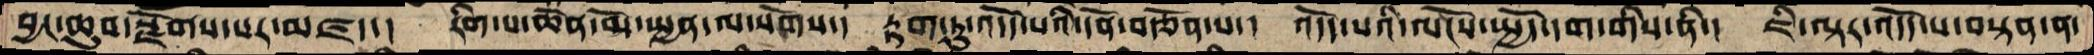བྱང་ཆུབ་སྫོགས་པར་མཛད་།  རིག་པ་ཆེན་མོ་སྤྱན་ལ་སོགས་།  རྟག་ཏུ་འདོད་པའི་དོན་བརྩོན་པ་།  འདོད་པའི་ལོངས་སྤྱོད་དག་གིས་ནི་།  ཇི་ལྟར་འདོད་པ་བསྟན་ན་
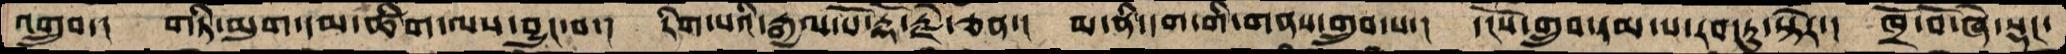འགྲུབ་།  གཏི་མུག་དམ་ཚིག་ལས་བྱུང་བ་།  རིག་པའི་རྒྱལ་པོ་རྡོ་རྗེ་ཅན་།  མ་ནི་དག་གི་གནས་གྲུབ་པ་།  དངོས་གྲུབ་དམ་པ་རབ་ཏུ་སྟེར་།  ཁྲོ་བོ་ཞེ་སྡང་
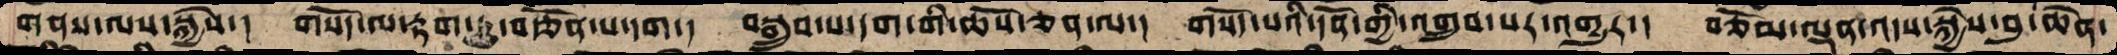གནས་ལས་སྐྱེས་།  གསོད་ལ་རྟག་ཏུ་བརྩོན་པ་དག་།  བསྒྲུབ་པ་དག་གི་ཆོས་ཅན་ལ་།  གསོད་པའི་དོན་གྱི་འགྲུབ་པར་འགྱུར་།  བཅོམ་ལྡན་འདས་སྐྱེས་བུ་ཆེན་
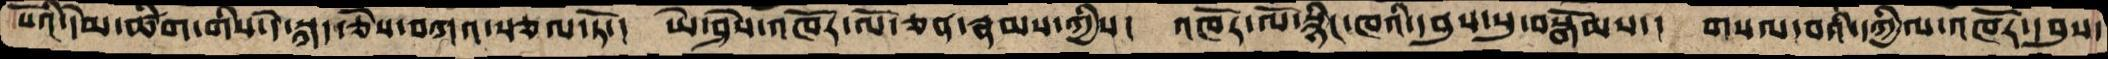པོའི་དེམ་ཚིག་གིས་དེ་་སྐད་ཅེས་བཀའ་སྩལ་ཏོ་།  ཡེ་ཤེས་འཁོར་ལོ་ཅན་རྣམས་ཀྱིས།  འཁོར་ལོ་སྙིང་ཁའི་དབུས་སུ་བསྒོམས་།  གསལ་བའི་དཀྱིལ་འཁོར་དབུས་
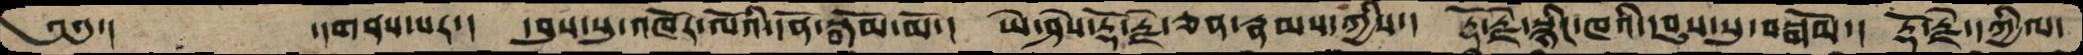༄༅་།       ་།གནས་པར་།  དབུས་སུ་འཁོར་ལོའི་དོན་སྒོམ་མོ་།  ཡེ་ཤེས་རྡོ་རྗེ་ཅན་རྣམས་ཀྱིས་།  རྡོ་རྗེ་སྙིང་ཁའི་དབུས་སུ་བསྒོམ་།  རྡོ་རྗེ་དཀྱིལ་
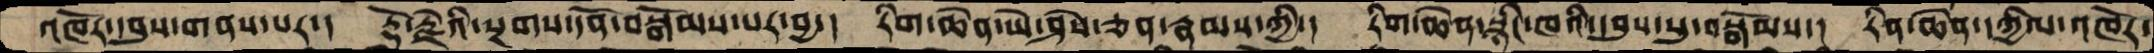འཁོར་དབུས་གནས་པར་།  རྡོ་རྗེའི་སྔགས་དོན་བསྒོམས་པར་བྱ་།  རིག་ཆེན་ཡེ་ཤེས་ཅན་རྣམས་ཀྱི་།  རིག་ཆེན་སྙིང་ཁའི་དབུས་སུ་བསྒོམས་།  རིན་ཆེན་དཀྱིལ་འཁོར་
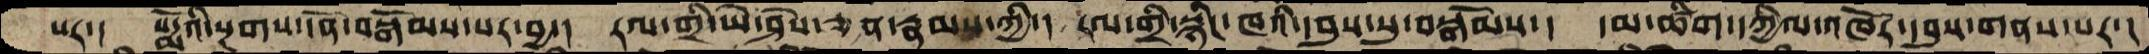པར་།  པདྨོའི་སྔགས་དོན་བསྒོམས་པར་བྱ་།  རལ་གྲི་ཡེ་ཤེས་ཅན་རྣམས་ཀྱི་།  རལ་གྲི་སྙིང་ཁའི་དབུས་སུ་བསྒོམས་།  དམ་ཚིག་དཀྱིལ་འཁོར་དབུས་གནས་པར་།
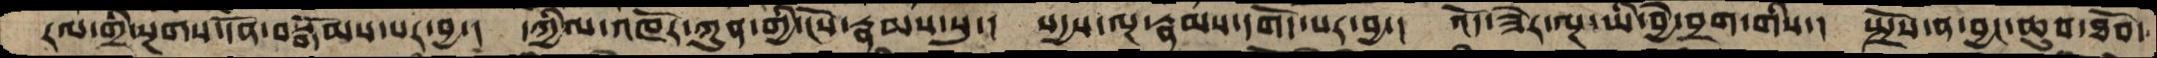རལ་གྲི་སྔགས་དོན་བསྒོམས་པར་བྱ་།  དཀྱིལ་འཁོར་ཀུན་གྱི་ངོས་རྣམས་སུ་།  སདྱས་ལྔ་རྣམས་དགོད་པར་བྱྲ་།  འོད་ཟེར་ལྔ་ཡི་བྱེ་བྲག་གིས་།  སྤྲོས་ན་བྱང་ཆུབ་ཐོབ་
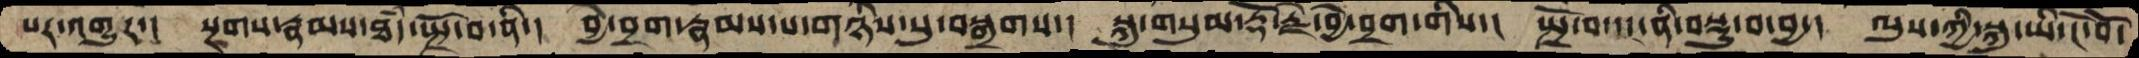པར་འགྱུར་།  སྔགས་རྣམས་ཐཾད་སྤྲོ་བ་ནི་།  བྱེ་བྲག་རྣམས་པ་གཉིས་སུ་བསྒྲགས་།  སྐུ་གསུམ་རྡོ་རྗེ་བྱེ་བྲག་གིས་།  སྤྲོ་བ་དང་ནི་བསྡུ་བ་བྱ་།  ལུས་ཀྱི་སྐུ་ཡི་ངོ་བོ་
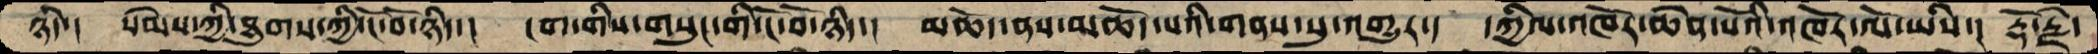ཉིད་།   སེམས་ཀྱི་ཐུགས་ཀྱི་ངོ་བོ་ཉིད་།  ངག་གིས་གསུང་གི་ངོ་བོ་ཉིད་།  མཆོད་ནས་མཆོད་པའི་གནས་སུ་འགྱུར་།  དཀྱིལ་འཁོར་ཆེན་པོའི་འཁོར་ལོ་ཡིས་།  རྡོ་རྗེ་
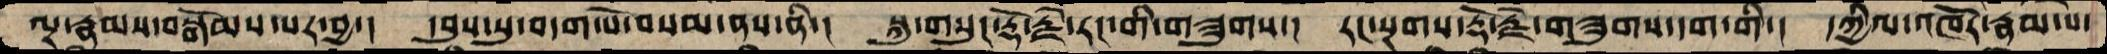ལྔ་རྣམས་བསྒོམས་པར་བྱ་།  དབུས་སུ་བདག་པོ་བསམ་ནས་ནི་།  སྐུ་གསུང་རྡོ་རྗེ་རང་གི་གཟུགས་།  རང་སྔགས་རྡོ་རྗེ་གཟུགས་དག་གི་།  དཀྱིལ་འཁོར་རྣམ་པ་
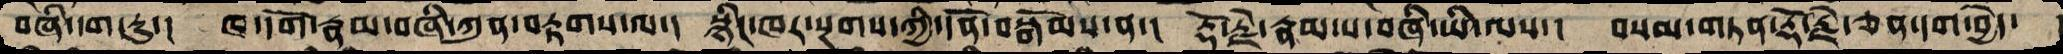བཞི་དག་ཏུ་།  ཁ་དོག་རྣམ་བཞི་ཀུན་བརྟགས་ལ་།  སྙིང་ཁར་སྔགས་ཀྱི་དོན་བསྒོོམས་ན་།  རྡོ་རྗེ་རྣམ་པ་བཞི་ཡི་ལས་།  བསམ་གཏན་རྡོ་རྗེ་ཅན་དག་བྱེད་
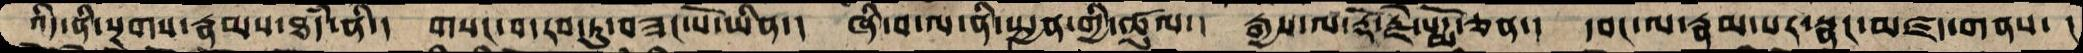འདི་ནི་སྔགས་རྣམས་ཐཾད་ནི་།  གསང་བ་རབ་ཏུ་བཟང་པོ་ཡིན་།  ཞི་བ་ལ་ནི་སྤྱན་གྱི་ཚུལ་།  རྒྱས་ལ་རྡོ་རྗེ་པདྨོ་ཅན་།  དབང་ལ་རྣམ་པར་སྣང་མཛད་གནས་ །
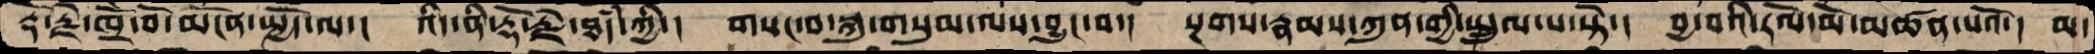རྡོ་རྗེ་ཁྲོ་བོ་མངོན་སྤྱོད་ལ་།  འདི་ནི་རྡོ་རྗེ་ཐཾད་ཀྱི་།  གསང་བ་སྐུ་གསུམ་ལས་བྱུང་བ་།  སྔགས་རྣམས་ཀུན་གྱི་སྤྲུལ་པ་སྟེ་།  བྱ་བའི་རོལ་མོ་མཚན་པའོ་། མ་
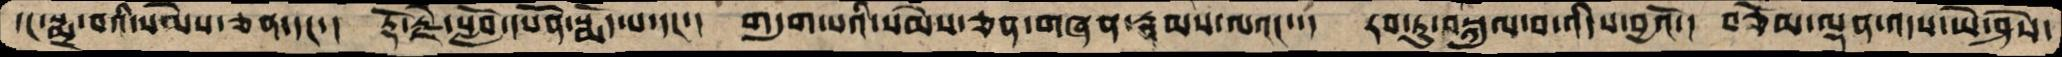དང་སྨྲ་བའི་སེམས་ཅན་དང་།  རྡོ་རྗེ་སློབ་དཔོན་སྨོད་པ་དང་།  གདུག་པའི་སེམས་ཅན་གཞན་རྣམས་ལའང་་།  རབ་ཏུ་བསྐུལ་བ་འདིས་བྱའོ་།  བཅོམ་ལྡན་འདས་ཡེ་ཤེས་
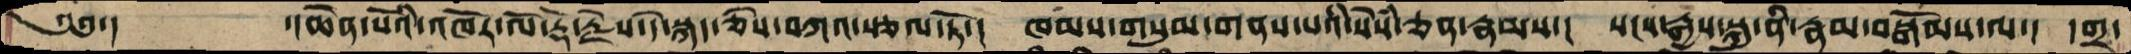༄༅་།        ་།ཆེན་པོའི་འཁོར་ལོ་རྡོ་རྗེས་དེ་སྐད་ཅེས་བཀའ་སྩལ་ཏོ་།  ཁམས་གསུམ་གནས་པའི་སེསཾ་ཅན་རྣམས་།  སངས་རྒྱས་སྐུ་ནི་རྣམ་བསྒོམས་ལ་།  དགྲ་
